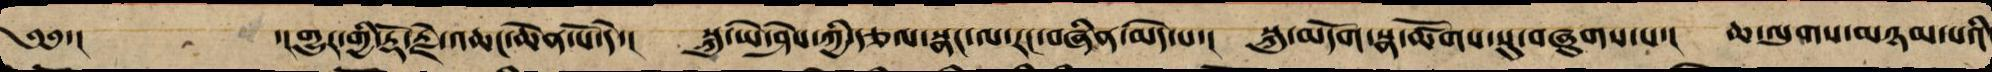༄༅་།  ་།གྱུར་གྱི་རྡོ་རྗེ་འཆང་ཆེན་པོ་དེ་། སྐུ་ཡེ་ཤེས་ཀྱི་རྩལ་སྣང་ལ་རང་བཞིན་མེད་པ་། སྐུ་མདོག་སྣ་ཚོགས་སུ་བཞུགས་པ་། ཆ་ལུགས་མཉམ་པའི་
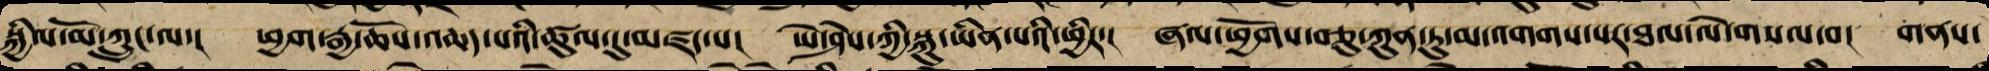སྐྱིལ་མོ་ཀྲུང་ལ་། ཕྱག་རྒྱ་ཆོས་འཆད་པའི་ཚུལ་དུ་མཛད་པ་། ཡེ་ཤེས་ཀྱི་སྐུ་ཡིན་པའི་ཕྱིར་། ཞལ་ཕྱོགས་བཅུ་ཀུན་ཏུ་མ་འགགས་པར་ཐལ་ལེ་གསལ་བ་། གནས་
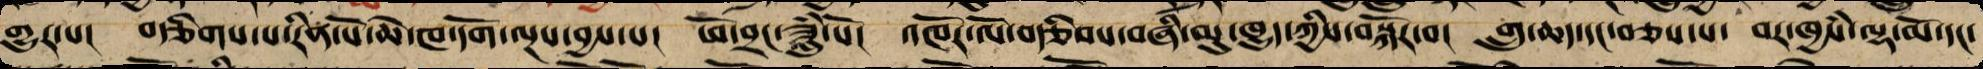གྱུར་པ་།  བརྩིགས་པ་རིན་པོ་ཆེ་ཁ་དོག་ལྔས་བྱས་པ་། ཕོ་བྲང་ཟླུཾ་པོ་། འཁོར་ལོ་བརྩིབས་བཞི་མུ་ཁྱུད་ཀྱིས་བསྐོར་བ་། གྲུ་ཆད་དང་བཅས་པ་། བར་ཁྱཾས་ལྷ་མོ་དང་
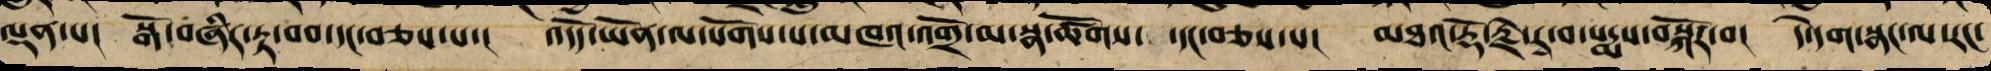ལྡན་པ་། སྒོ་བཞི་རྟ་བབས་དང་བཅས་པ་། འདོད་ཡོན་གྱི་སྣམ་བུ་ལ་མཁའ་འགྲོ་མ་སྣ་ཚོགས་དང་བཅས་པ་། མཐའ་རྡོ་རྗེའི་རྭ་བ་པདྨས་བསྐོར་བ། དེ་དག་སྣང་ལ་རང་
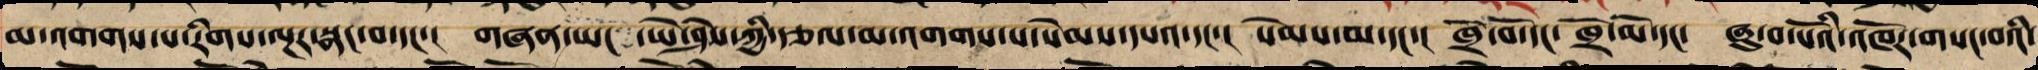མ་འགགས་པ་རིགས་ལྔར་སྣང་བ་དང་། གཞན་ཡང་ཡེ་ཤེས་ཀྱི་རྩལ་མ་འགགས་པ་སེམས་དཔའ་དང་། སེམས་མ་དང་། ཁྲོ་བོ་དང་། ཁྲོ་མོ་དང་། ཞུ་བ་པོའི་འཁོར་གསང་བའི་
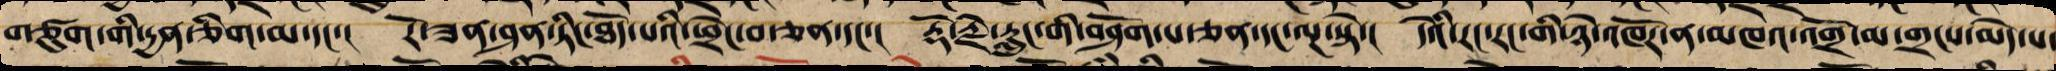གཙུག་གི་དྱན་གཅིག་མ་དང་། རོ་ཟན་ཤན་ཏིང་ཐོད་པའི་ཕྲེང་བ་ཅན་དང་། རྡོ་རྗེ་རླུང་གི་གཤོག་པ་ཅན་དང་ལྔ་སྟེ་། དེའི་རང་རང་ཉེ་འཁོར་ན་མཁའ་འགྲོ་མ་གྲངས་མེད་པ་
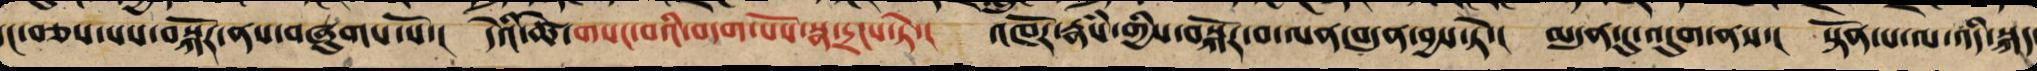དང་བཅས་པས་བསྐོར་ནས་བཞུགས་སོ་། དེའི་ཚེ་གསང་བའི་བདག་པོས་སྣ་དྲངས་ཏེ་། འཁོར་རྣཾས་ཀྱིས་བསྐོར་བ་ལན་བདུན་བྱས་ཏེ་། མདུན་དུ་འདུག་ནས་། སྟོན་པ་ལ་འདི་སྐད
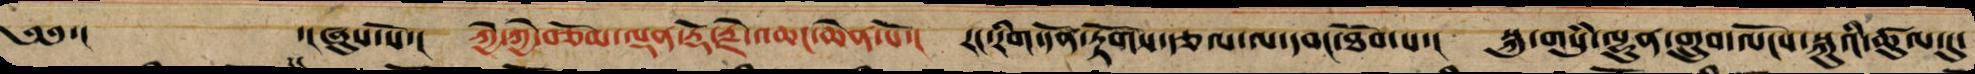༄༅་།  ་།ཞུས་སོ་། ཀྱེ་ཀྱེ་བཅོམ་ལྡན་རྡོ་རྗེ་འཆང་ཆེན་པོ་། རང་རིག་དོན་རྟོགས་རྩལ་ལ་དབང་ཐོབ་པ་། སྐུ་གསུཾ་ལྷུན་གྲུབ་ལོངས་སྐུའི་ཚུལ་དུ་
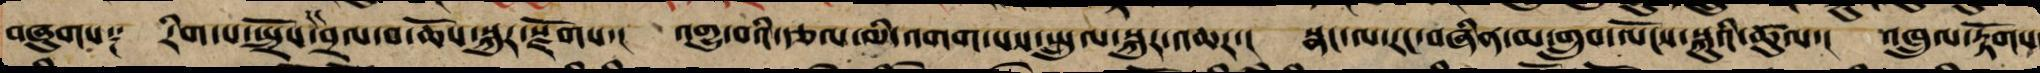བཞུགས༑ རིག་པ་སྤྲོས་དང་བྲལ་བ་ཆོས་སྐུར་སྫོགས་། འགྱུ་བའི་རྩལ་མི་འགག་པས་སྤྲུལ་སྐུར་འཆར་། སྣང་ལ་རང་བཞིན་མ་གྲུབ་ལོངས་སྐུའི་ཚུལ་། འཁྲུལ་རྟོགས
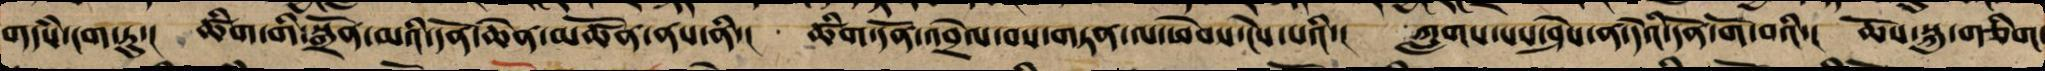གདམས་ངག་ཏུ་། ཚིག་གི་སྒྲོན་མའི་དོན་ཆེན་མཚོན་ནས་ནི་། ཚིག་དོན་འབྲེལ་བའི་གཏན་ལ་ཕེབས་ངེས་པའི་། ཀླགས་པས་ཤེས་ནས་དེ་ཡིས་དོན་གོ་བས་། ཆོས་སྐུ་གཅིག་
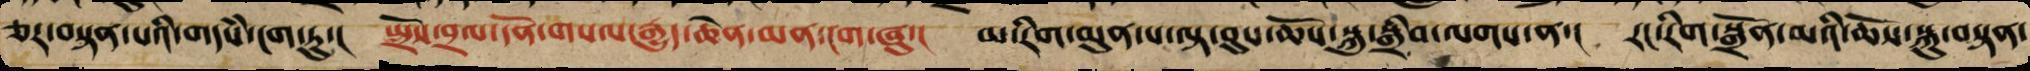ཅར་བསྟན་པའི་གདཾས་ངག་ཏུ་། སྤྲོས་བྲལ་དོན་གསལ་རྒྱུད་ཆེན་མན་ངག་ཞུ་། མ་རིག་མུན་པ་ལྟ་བུས་ཆོས་སྐུ་སྒྲིབ་ལགས་ན་། རང་རིག་སྒྲོན་མས་ཆོས་སྐུ་བསྟན་
